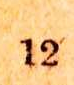12
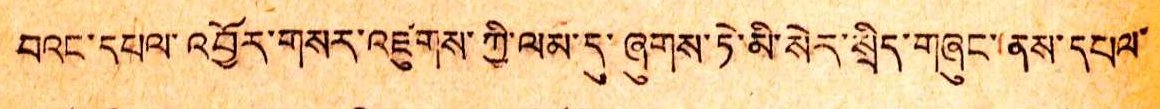བའང་དཔལ་འབྱོར་གསར་འཛུགས་ཀྱི་ལམ་དུ་ཞུགས་ཏེ་མི་སེར་སྲིད་གཞུང་ནས་དཔལ་
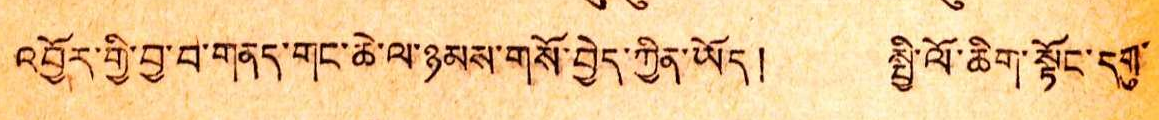འབྱོར་གྱི་བྱ་བ་གནད་གང་ཆེ་ལ་ཉམས་གསོ་བྱེད་ཀྱིན་ཡོད། སྤྱི་ལོ་ཆིག་སྟོང་དགུ་
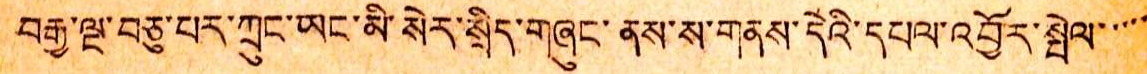བརྒྱ་ལྔ་བཅུ་པར་ཀྲུང་ཡང་མི་སེར་སྲིད་གཞུང་ནས་ས་གནས་དེའི་དཔལ་འབྱོར་སྤེལ་་་་་
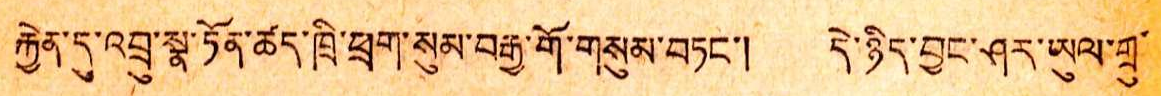རྐྱེན་དུ་འབྲུ་སྣ་ཏོན་ཚད་ཁྲི་ཕྲག་སུམ་བརྒྱ་གོ་གསུམ་གཏང་། དེ་ཉིད་བྱང་ཤར་ཡུལ་གྲུ་
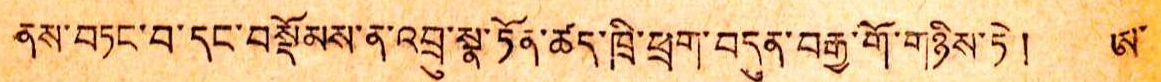ནས་བཏང་བ་དང་བསྡོམས་ན་འབྲུ་སྣ་ཏོན་ཚད་ཁྲི་ཕྲག་བདུན་བརྒྱ་གོ་གཉིས་ཏེ། ཨ་
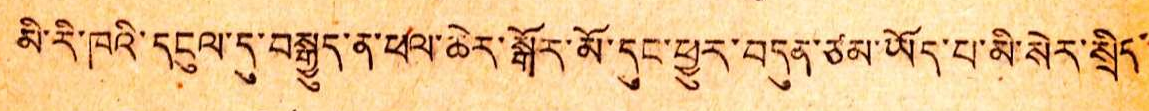མི་རི་ཁའི་དངུལ་དུ་བསྒྱུད་ན་ཕལ་ཆེར་སྒོར་མོ་དུང་ཕྱུར་བདུན་ཙམ་ཡོད་པ་མི་སེར་སྲིད་
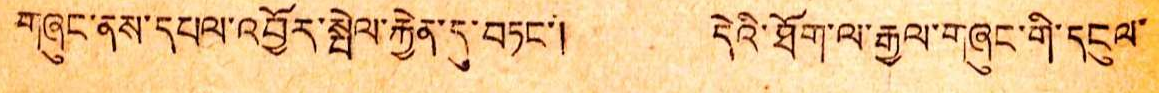གཞུང་ནས་དཔལ་འབྱོར་སྤེལ་རྐྱེན་དུ་གཏང་། དེའི་ཐོག་ལ་རྒྱལ་གཞུང་གི་དངུལ་
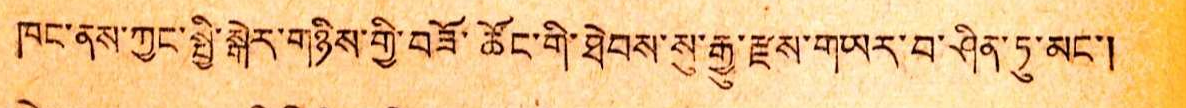ཁང་ནས་ཀྱང་སྤྱི་སྒེར་གཉིས་གྱི་བཟོ་ཚོང་གི་ཐེབས་སུ་རྒྱུ་རྫས་གཡར་བ་ཤིན་ཏུ་མང་།
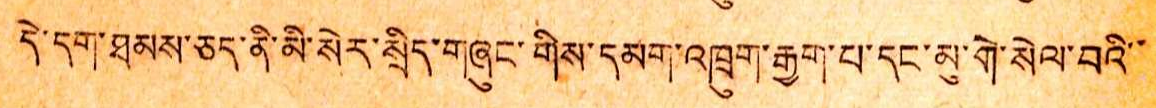དེ་དག་ཐམས་ཅད་ནི་མི་སེར་སྲིད་གཞུང་གིས་དམག་འཁྲུག་རྒྱག་པ་དང་མུ་གེ་སེལ་བའི་་
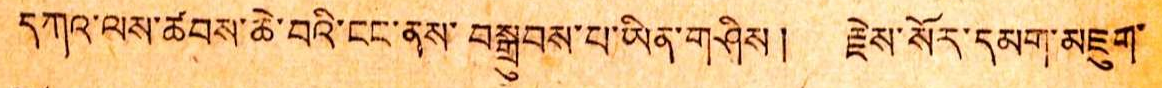དཀའ་ལས་ཚབས་ཆེ་བའི་ངང་ནས་བསྒྲུབས་པ་ཡིན་གཤིས། རྗེས་སོར་དམག་མཇུག་
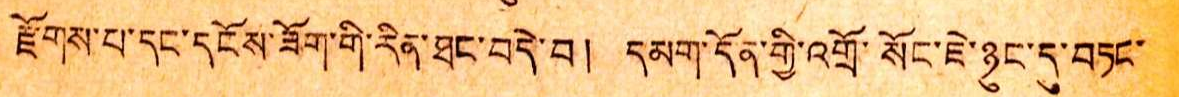རྫོགས་པ་དང་དངོས་ཟོག་གི་རིན་ཐང་བདེ་བ། དམག་དོན་གྱི་འགྲོ་སོང་ཇི་ཉུང་དུ་བཏང་
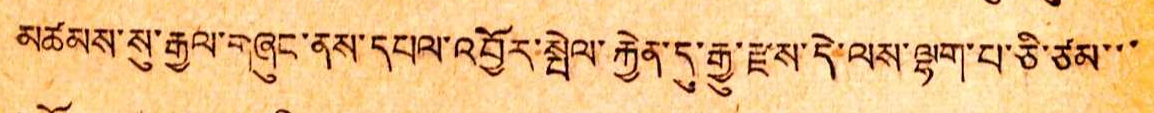མཚམས་སུ་རྒྱལ་གཞུང་ནས་དཔལ་འབྱོར་སྤེལ་རྐྱེན་དུ་རྒྱུ་རྫས་དེ་ལས་ལྷག་པ་ཅི་ཙམ་་་
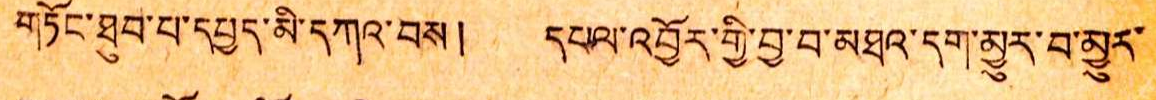གཏོང་ཐུབ་པ་དཔྱད་མི་དཀའ་བས། དཔལ་འབྱོར་གྱི་བྱ་བ་མཐའ་དག་མྱུར་བམྱུར་
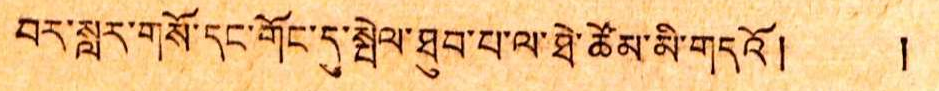བར་སླར་གསོ་དང་གོང་དུ་སྤེལ་ཐུབ་པ་ལ་ཐེ་ཚོམ་མི་གདའོ། །
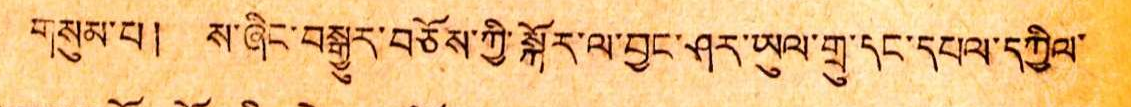གསུམ་པ། ས་ཞིང་བསྒྱུར་བཅོས་ཀྱི་སྐོར་ལ་བྱང་ཤར་ཡུལ་གྲུ་དང་དཔལ་དཀྱིལ་
